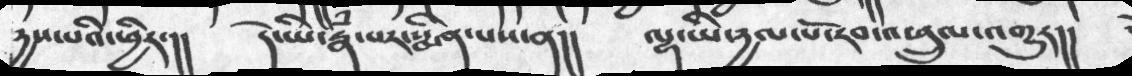དྱས་པའི་ཕྱིར་།།  དེ་ཡི་རྣཾ་པར་སྨིན་པས་ན།།   ལྷ་ཡི་དྱལ་པོ་རབ་འཕྲུལ་འགྱུར།།
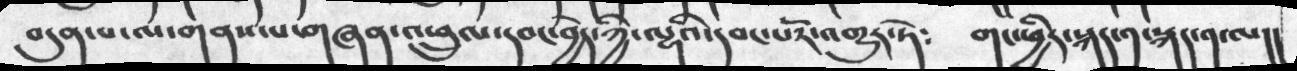བདུན་པ་ལ་གནས་པ་གཞན་འཕྲུལ་དབང་བྱེད་ཀྱི་ལྷའི་དབང་པོར་འགྱུར་ཏེ༴     གང་ཕྱིར་སྐད་༡་སྐད་༡་ལ།།
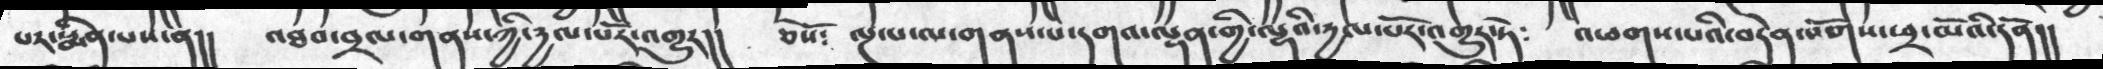པར་སྨིན་པས་ན།  འཐབ་བྲལ་གནས་ཀྱི་དྱལ་པོར་འགྱུར།། ཅེསོ༴  ལྔ་པ་ལ་གནས་པ་དགའ་ལྡན་གྱི་ལྷའི་དྱལ་པོར་འགྱུར་ཏེ༴   འཕགས་པའི་བདེན་སོགས་ཕྲ་མོའི་དོན།།
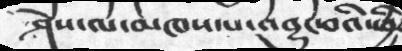ཤེས་ལ་མཁས་པ་འབྱུང་བའི་ཕྱིར
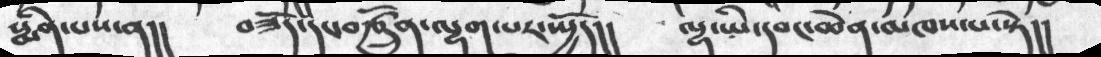སྨིན་པས་ན།།  བཟོད་དང་བརྩྲོུས་ལྷག་པར་སྤྱོད།།   ལྷ་ཡི་དབང་ཆེན་མཁས་པ་སྟེ།།
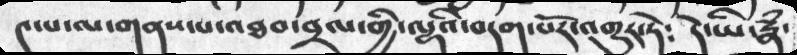༤་པ་ལ་གནས་པ་འཐབ་བྲལ་གྱི་ལྷའི་བདག་པོར་འགྱུར་ཏེ༴    དེ་ཡི་རྣཾ་
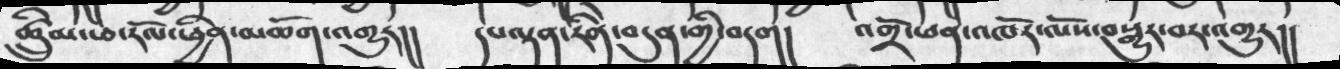ཚྲིུམ་ཕ་རོལ་ཕྱིན་མཆོག་འགྱུར།།  དཔལྡན་རིེན་བདུན་གྱི་བདག།   འགྲོ་ཕན་འཁོར་ལོས་བསྒྱུར་བར་འགྱུར།།
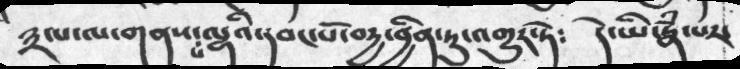༣་པ་ལ་གནས་པ་ལྷའི་དབང་པོ་བདྱ་བྱིན་ཏུ་འགྱུར་ཏེ༴  དེ་ཡི་རྣཾ་པར་
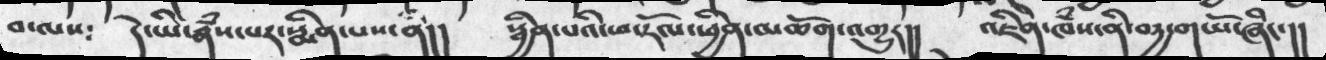བ་ལས༴   དེ་ཡི་རྣཾས་པར་སྨིནཔས་ནི།།  སྦྱིན་པའི་ཕ་རོལ་ཕྱིན་མཆོག་འགྱུར།།   འཇིེན་ཁཾས་ནི་བདྱ་གཡོ་ཞིང་།།
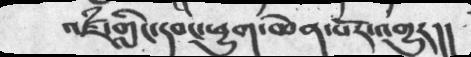འཛཾ་གླིང་དབང་ཕྱུག་ཆེན་པོ་འགྱུར།།
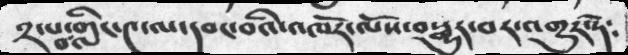༢་པ་བགླིང་༤་ལ་དབང་བའི་འཁོར་ལོས་བསྒྱུར་བར་འགྱུར་ཏེ༴
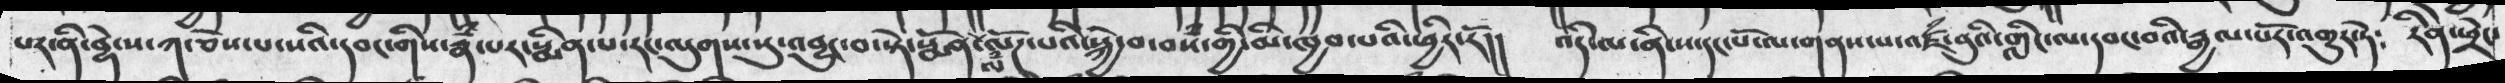པར་ནི་བྷེ་ས་ཀ་ཅེས་པ་སའི་དབང་གིས་རྣཾ་པར་སྨིན་པ་རང་ལུགས་སུ་འབྱུང་བ་སྟེ་སྨོན་ལཾ་ལོཌ་པའི་སྐྱེ་བ་བསཾ་གྱི་མི་ཁྱབ་པའི་ཕྱིར་རོ།།  འདི་ལ་ནི་ས་དང་པོ་ལ་གནས་པ་འཛཾ་བུའི་གླིང་ལ་དབང་བའི་རྒྱལ་པོར་འགྱུར་ཏེ༴  རིན་ཆེན་ཕྲེང་
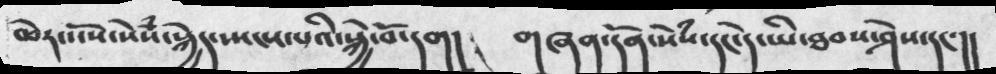ཆེར་སོས་སེཾས་སྐྱེད་སྤངས་པའི་སྐྱེ་བོ་དག།  གཞན་དོན་སེྃས་དང་དེ་ཡི་ཐབས་ཤེས་དང་།།
